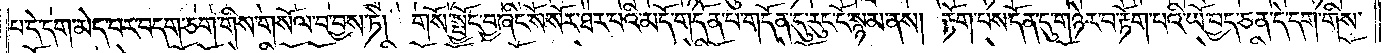པ་དེ་དག་མེད་པར་བདག་ཅག་གིས་གསོལ་བ་བྱས་ཏེ། གསོ་སྦྱོང་བྱ་ཞིང་སོ་སོར་ཐར་པའི་མདོ་གདོན་པ་གདོན་དུ་རུང་ངོ་སྙམ་ནས། རྟོག་པས་དོན་དུ་གཉེར་བ་རྟོག་པའི་ཡོ་བྱད་ཅན་དེ་དག་གིས་
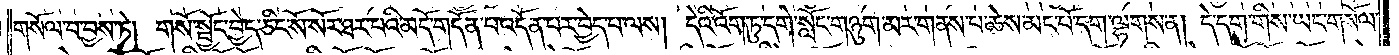གསོལ་བ་བྱས་ཏེ། གསོ་སྦྱོང་བྱེད་ཅིང་སོ་སོར་ཐར་པའི་མདོ་གདོན་པ་འདོན་པར་བྱེད་པ་ལས། དེའི་འོག་ཏུ་དགེ་སློང་གཉུག་མར་གནས་པ་ཆེས་མང་པོ་དག་ལྷགས་ན། དེ་དག་གིས་ཡང་གསོལ་
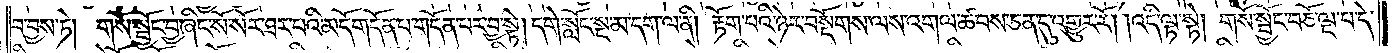བ་བྱས་ཏེ། གསོ་སྦྱོང་བྱ་ཞིང་སོ་སོར་ཐར་པའི་མདོ་གདོན་པ་གདོན་པར་བྱ་སྟེ། དགེ་སློང་སྔ་མ་དག་ལ་ནི། རྟོག་པའི་ཉེར་བསྡོགས་ལས་འགལ་ཚབས་ཅན་དུ་འགྱུར་རོ། །འདི་ལྟ་སྟེ། གསོ་སྦྱོང་བཅོ་ལྔ་པ་དེ་
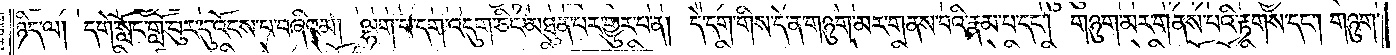ཉིད་ལ། དགེ་སློང་གློ་བུར་དུ་འོངས་པ་བཞིའམ། ལྷག་པ་དག་འདུག་ཅིང་མཐུན་པར་གྱུར་པ་ན། དེ་དག་གིས་དེ་ན་གཉུག་མར་གནས་པའི་རྣམ་པ་དང༌། གཉུག་མར་གནས་པའི་རྟགས་དང༌། གཉུག་
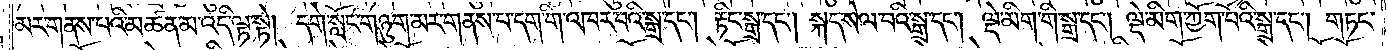མར་གནས་པའི་མཚན་མ་འདི་ལྟ་སྟེ། དགེ་སློང་གཉུག་མར་གནས་པ་དག་གི་འཁར་བའི་སྒྲ་དང༌། རྟིང་སྒྲ་དང༌། སྐད་སེལ་བའི་སྒྲ་དང༌། ལྡེ་མིག་གི་སྒྲ་དང༌། ལྡེ་མིག་ཀྱོག་པོའི་སྒྲ་དང༌། གཏང་
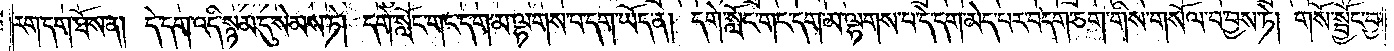རག་དག་ཐོས་ན། དེ་དག་འདི་སྙམ་དུ་སེམས་ཏེ། དགེ་སློང་གང་དག་མ་ལྷགས་པ་དག་ཡོད་ན། དགེ་སློང་གང་དག་མ་ལྷགས་པ་དེ་དག་མེད་པར་བདག་ཅག་གིས་གསོལ་བ་བྱས་ཏེ། གསོ་སྦྱོང་བྱ་
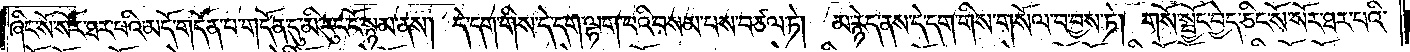ཞིང་སོ་སོར་ཐར་པའི་མདོ་གདོན་པ་གདོན་དུ་མི་རུང་ངོ་སྙམ་ནས། དེ་དག་གིས་དེ་དག་ལྷག་པའི་བསམ་པས་བཙལ་ཏེ། མ་རྙེད་ནས་དེ་དག་གིས་གསོལ་བ་བྱས་ཏེ། གསོ་སྦྱོང་བྱེད་ཅིང་སོ་སོར་ཐར་པའི་
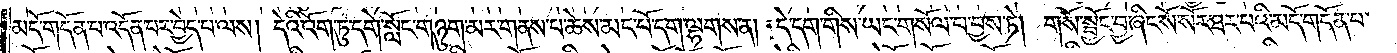མདོ་གདོན་པ་འདོན་པར་བྱེད་པ་ལས། དེའི་འོག་ཏུ་དགེ་སློང་གཉུག་མར་གནས་པ་ཆེས་མང་པོ་དག་ལྷགས་ན། དེ་དག་གིས་ཡང་གསོལ་བ་བྱས་ཏེ། གསོ་སྦྱོང་བྱ་ཞིང་སོ་སོར་ཐར་པའི་མདོ་གདོན་པ་
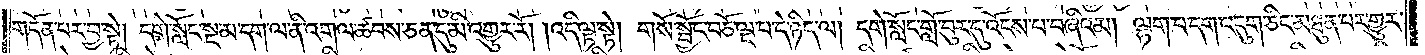གདོན་པར་བྱ་སྟེ། དགེ་སློང་སྔ་མ་དག་ལ་ནི་འགལ་ཚབས་ཅན་དུ་མི་འགྱུར་རོ། །འདི་ལྟ་སྟེ། གསོ་སྦྱོང་བཅོ་ལྔ་པ་དེ་ཉིད་ལ། དགེ་སློང་གློ་བུར་དུ་འོངས་པ་བཞིའམ། ལྷག་པ་དག་འདུག་ཅིང་མཐུན་པར་གྱུར་
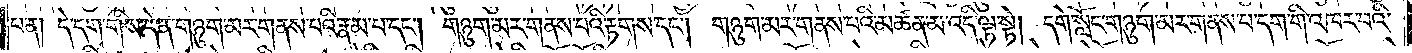པ་ན། དེ་དག་གིས་དེ་ན་གཉུག་མར་གནས་པའི་རྣམ་པ་དང༌། གཉུག་མར་གནས་པའི་རྟགས་དང༌། གཉུག་མར་གནས་པའི་མཚན་མ་འདི་ལྟ་སྟེ། དགེ་སློང་གཉུག་མར་གནས་པ་དག་གི་འཁར་བའི་
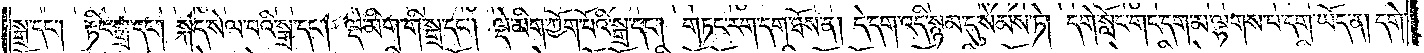སྒྲ་དང༌། རྟིང་སྒྲ་དང༌། སྐད་སེལ་བའི་སྒྲ་དང༌། ལྡེ་མིག་གི་སྒྲ་དང༌། ལྡེ་མིག་ཀྱོག་པོའི་སྒྲ་དང༌། གཏང་རག་དག་ཐོས་ན། དེ་དག་འདི་སྙམ་དུ་སེམས་ཏེ། དགེ་སློང་གང་དག་མ་ལྷགས་པ་དག་ཡོད་ན། དགེ་
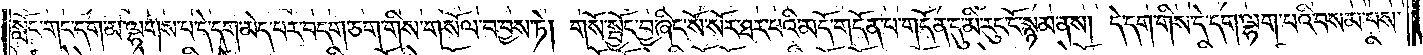སློང་གང་དག་མ་ལྷགས་པ་དེ་དག་མེད་པར་བདག་ཅག་གིས་གསོལ་བ་བྱས་ཏེ། གསོ་སྦྱོང་བྱ་ཞིང་སོ་སོར་ཐར་པའི་མདོ་གདོན་པ་གདོན་དུ་མི་རུང་ངོ་སྙམ་ནས། དེ་དག་གིས་དེ་དག་ལྷག་པའི་བསམ་པས་
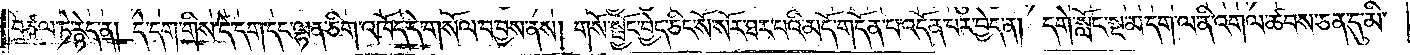བཙལ་ཏེ་རྙེད་ན། དེ་དག་གིས་དེ་དག་དང་ལྷན་ཅིག་འཁོད་དེ་གསོལ་བ་བྱས་ནས། གསོ་སྦྱོང་བྱེད་ཅིང་སོ་སོར་ཐར་པའི་མདོ་གདོན་པ་འདོན་པར་བྱེད་ན། དགེ་སློང་སྔ་མ་དག་ལ་ནི་འགལ་ཚབས་ཅན་དུ་མི་
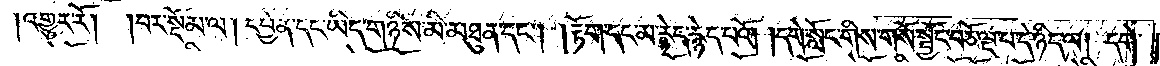འགྱུར་རོ། །བར་སྡོམ་ལ། དབྱེན་དང་ཡིད་གཉིས་མི་མཐུན་དང༌། །རྟོག་དང་མ་རྙེད་རྙེད་པའོ། །དགེ་སློང་གས་གསོ་སྦྱོང་བཅོ་ལྔ་པ་དེ་ཉིད་ལ། དགེ་
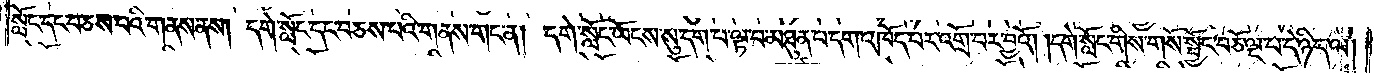སློང་དང་བཅས་པའི་གནས་ནས། དགེ་སློང་དང་བཅས་པའི་གནས་གང་ན། དགེ་སློང་ཡོངས་སུ་དག་པ་ལྟ་བ་མཐུན་པ་དག་འཁོད་པར་འགྲོ་བར་བྱའོ། །དགེ་སློང་གིས་གསོ་སྦྱོང་བཅོ་ལྔ་པ་དེ་ཉིད་ལ།
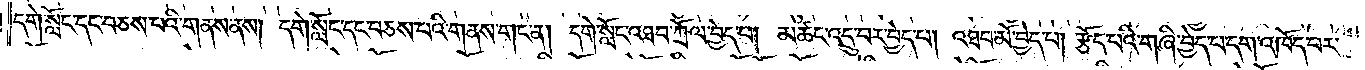དགེ་སློང་དང་བཅས་པའི་གནས་ནས། དགེ་སློང་དང་བཅས་པའི་གནས་གང་ན། དགེ་སློང་འཐབ་ཀྲོལ་བྱེད་པ། མཚང་འདྲུ་བར་བྱེད་པ། འཐབ་མོ་བྱེད་པ། རྩོད་པའི་གཞི་བྱེད་པ་དག་འཁོད་པར་
